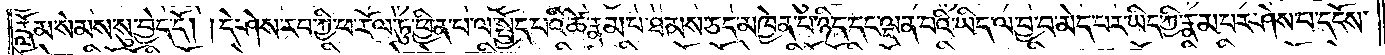རློམ་སེམས་སུ་བྱེད་དོ། །དེ་ཤེས་རབ་ཀྱི་ཕ་རོལ་ཏུ་ཕྱིན་པ་ལ་སྤྱོད་པའི་ཚེ་རྣམ་པ་ཐམས་ཅད་མཁྱེན་པ་ཉིད་དང་ལྡན་པའི་ཡིད་ལ་བྱ་བ་མེད་པར་ཡིད་ཀྱི་རྣམ་པར་ཤེས་པ་དངོས་
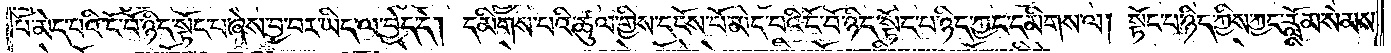པོ་མེད་པའི་ངོ་བོ་ཉིད་སྟོང་པ་ཞེས་བྱ་བར་ཡིད་ལ་བྱེད་དེ། དམིགས་པའི་ཚུལ་གྱིས་དངོས་པོ་མེད་པའི་ངོ་བོ་ཉིད་སྟོང་པ་ཉིད་ཀྱང་དམིགས་ལ། སྟོང་པ་ཉིད་ཀྱིས་ཀྱང་རློམ་སེམས་
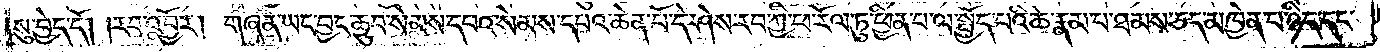སུ་བྱེད་དོ། །རབ་འབྱོར། གཞན་ཡང་བྱང་ཆུབ་སེམས་དཔའ་སེམས་དཔའ་ཆེན་པོ་དེ་ཤེས་རབ་ཀྱི་ཕ་རོལ་ཏུ་ཕྱིན་པ་ལ་སྤྱོད་པའི་ཚེ་རྣམ་པ་ཐམས་ཅད་མཁྱེན་པ་ཉིད་དང་
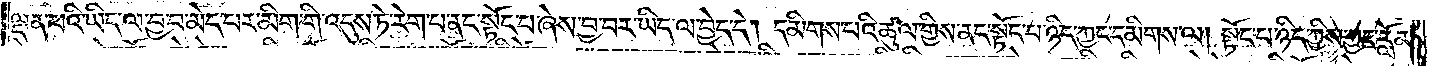ལྡན་པའི་ཡིད་ལ་བྱ་བ་མེད་པར་མིག་གི་འདུས་ཏེ་རེག་པ་ནང་སྟོང་པ་ཞེས་བྱ་བར་ཡིད་ལ་བྱེད་དེ། དམིགས་པའི་ཚུལ་གྱིས་ནང་སྟོང་པ་ཉིད་ཀྱང་དམིགས་ལ། སྟོང་པ་ཉིད་ཀྱིས་ཀྱང་རློམ་
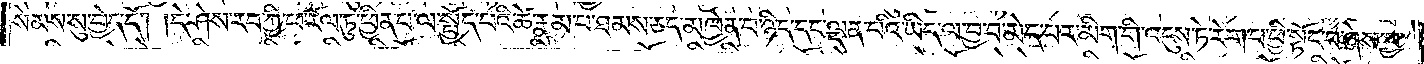སེམས་སུ་བྱེད་དོ། །དེ་ཤེས་རབ་ཀྱི་ཕ་རོལ་ཏུ་ཕྱིན་པ་ལ་སྤྱོད་པའི་ཚེ་རྣམ་པ་ཐམས་ཅད་མཁྱེན་པ་ཉིད་དང་ལྡན་པའི་ཡིད་ལ་བྱ་བ་མེད་པར་མིག་གི་འདུས་ཏེ་རེག་པ་ཕྱི་སྟོང་པ་ཞེས་བྱ་
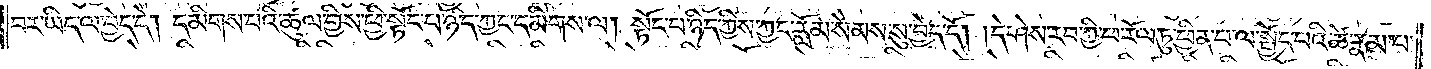བར་ཡིད་ལ་བྱེད་དེ། དམིགས་པའི་ཚུལ་གྱིས་ཕྱི་སྟོང་པ་ཉིད་ཀྱང་དམིགས་ལ། སྟོང་པ་ཉིད་ཀྱིས་ཀྱང་རློམ་སེམས་སུ་བྱེད་དོ། །དེ་ཤེས་རབ་ཀྱི་ཕ་རོལ་ཏུ་ཕྱིན་པ་ལ་སྤྱོད་པའི་ཚེ་རྣམ་པ་
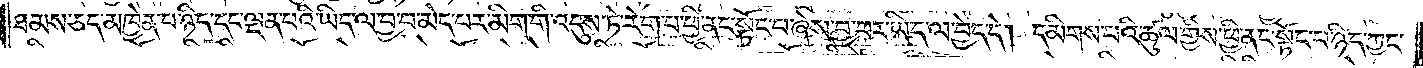ཐམས་ཅད་མཁྱེན་པ་ཉིད་དང་ལྡན་པའི་ཡིད་ལ་བྱ་བ་མེད་པར་མིག་གི་འདུས་ཏེ་རེག་པ་ཕྱི་ནང་སྟོང་པ་ཞེས་བྱ་བར་ཡིད་ལ་བྱེད་དེ། དམིགས་པའི་ཚུལ་གྱིས་ཕྱི་ནང་སྟོང་པ་ཉིད་ཀྱང་
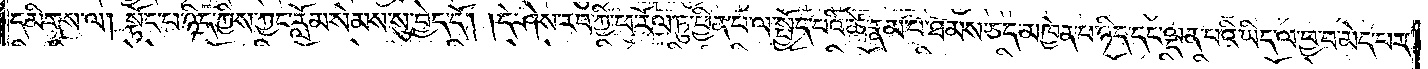དམིགས་ལ། སྟོང་པ་ཉིད་ཀྱིས་ཀྱང་རློམ་སེམས་སུ་བྱེད་དོ། །དེ་ཤེས་རབ་ཀྱི་ཕ་རོལ་ཏུ་ཕྱིན་པ་ལ་སྤྱོད་པའི་ཚེ་རྣམ་པ་ཐམས་ཅད་མཁྱེན་པ་ཉིད་དང་ལྡན་པའི་ཡིད་ལ་བྱ་བ་མེད་པར་
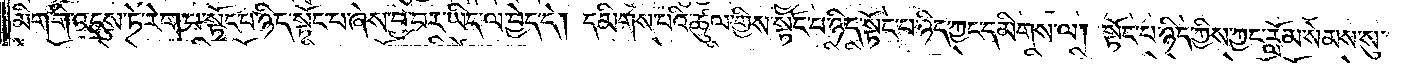མིག་གི་འདུས་ཏེ་རེག་པ་སྟོང་པ་ཉིད་སྟོང་པ་ཞེས་བྱ་བར་ཡིད་ལ་བྱེད་དེ། དམིགས་པའི་ཚུལ་གྱིས་སྟོང་པ་ཉིད་སྟོང་པ་ཉིད་ཀྱང་དམིགས་ལ། སྟོང་པ་ཉིད་ཀྱིས་ཀྱང་རློམ་སེམས་སུ་
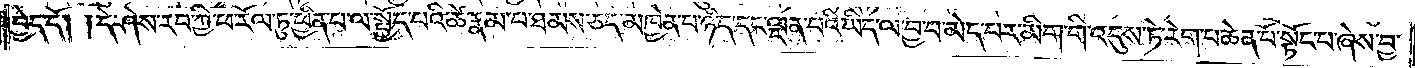བྱེད་དོ། །དེ་ཤེས་རབ་ཀྱི་ཕ་རོལ་ཏུ་ཕྱིན་པ་ལ་སྤྱོད་པའི་ཚེ་རྣམ་པ་ཐམས་ཅད་མཁྱེན་པ་ཉིད་དང་ལྡན་པའི་ཡིད་ལ་བྱ་བ་མེད་པར་མིག་གི་འདུས་ཏེ་རེག་པ་ཆེན་པོ་སྟོང་པ་ཞེས་བྱ་
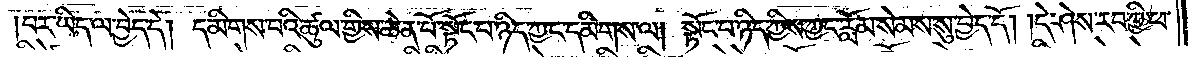བར་ཡིད་ལ་བྱེད་དེ། དམིགས་པའི་ཚུལ་གྱིས་ཆེན་པོ་སྟོང་པ་ཉིད་ཀྱང་དམིགས་ལ། སྟོང་པ་ཉིད་ཀྱིས་ཀྱང་རློམ་སེམས་སུ་བྱེད་དོ། །དེ་ཤེས་རབ་ཀྱི་ཕ་
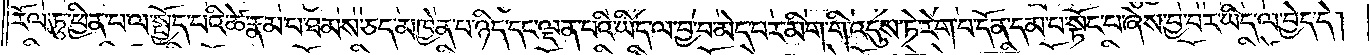རོལ་ཏུ་ཕྱིན་པ་ལ་སྤྱོད་པའི་ཚེ་རྣམ་པ་ཐམས་ཅད་མཁྱེན་པ་ཉིད་དང་ལྡན་པའི་ཡིད་ལ་བྱ་བ་མེད་པར་མིག་གི་འདུས་ཏེ་རེག་པ་དོན་དམ་པ་སྟོང་པ་ཞེས་བྱ་བར་ཡིད་ལ་བྱེད་དེ།
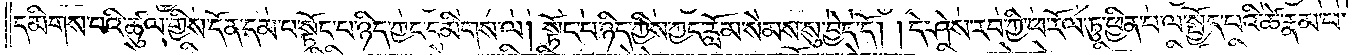དམིགས་པའི་ཚུལ་གྱིས་དོན་དམ་པ་སྟོང་པ་ཉིད་ཀྱང་དམིགས་ལ། སྟོང་པ་ཉིད་ཀྱིས་ཀྱང་རློམ་སེམས་སུ་བྱེད་དོ། །དེ་ཤེས་རབ་ཀྱི་ཕ་རོལ་ཏུ་ཕྱིན་པ་ལ་སྤྱོད་པའི་ཚེ་རྣམ་པ་
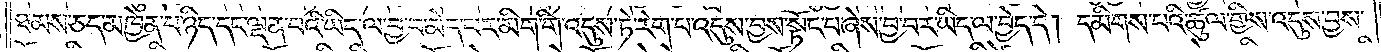ཐམས་ཅད་མཁྱེན་པ་ཉིད་དང་ལྡན་པའི་ཡིད་ལ་བྱ་བ་མེད་པར་མིག་གི་འདུས་ཏེ་རེག་པ་འདུས་བྱས་སྟོང་པ་ཞེས་བྱ་བར་ཡིད་ལ་བྱེད་དེ། དམིགས་པའི་ཚུལ་གྱིས་འདུས་བྱས་
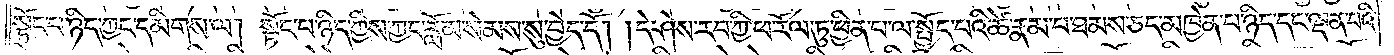སྟོང་པ་ཉིད་ཀྱང་དམིགས་ལ། སྟོང་པ་ཉིད་ཀྱིས་ཀྱང་རློམ་སེམས་སུ་བྱེད་དོ། །དེ་ཤེས་རབ་ཀྱི་ཕ་རོལ་ཏུ་ཕྱིན་པ་ལ་སྤྱོད་པའི་ཚེ་རྣམ་པ་ཐམས་ཅད་མཁྱེན་པ་ཉིད་དང་ལྡན་པའི་
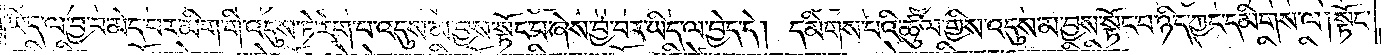ཡིད་ལ་བྱ་བ་མེད་པར་མིག་གི་འདུས་ཏེ་རེག་པ་འདུས་མ་བྱས་སྟོང་པ་ཞེས་བྱ་བར་ཡིད་ལ་བྱེད་དེ། དམིགས་པའི་ཚུལ་གྱིས་འདུས་མ་བྱས་སྟོང་པ་ཉིད་ཀྱང་དམིགས་ལ། སྟོང་
